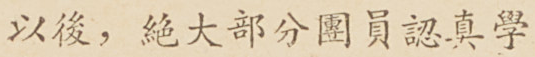以後，絕大部分團員認真學
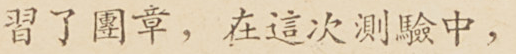習了團章，在這次測驗中，
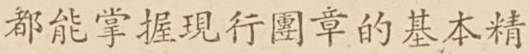都能掌握現行團章的基本精
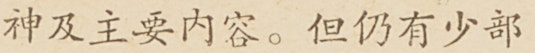神及主要內容。但仍有少部
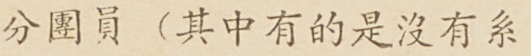分團員（其中有的是沒有系
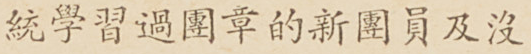統學習過團章的新團員及沒
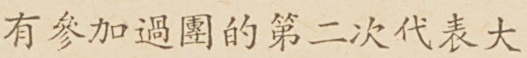有參加過團的第二次代表大
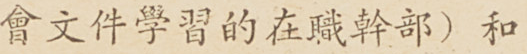會文件學習的在職幹部）和
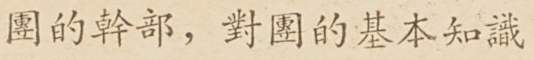團的幹部，對團的基本知識
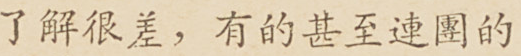了解很差，有的甚至連團的
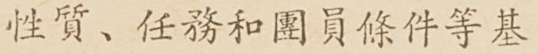性質、任務和團員條件等基
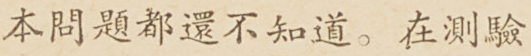本問題都還不知道。在測驗
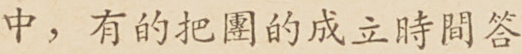中，有的把團的成立時間答
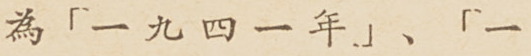為「一九四一年」、「一
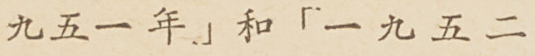九五一年」和「一九五二
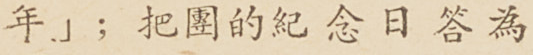年」；把團的紀念日答為
